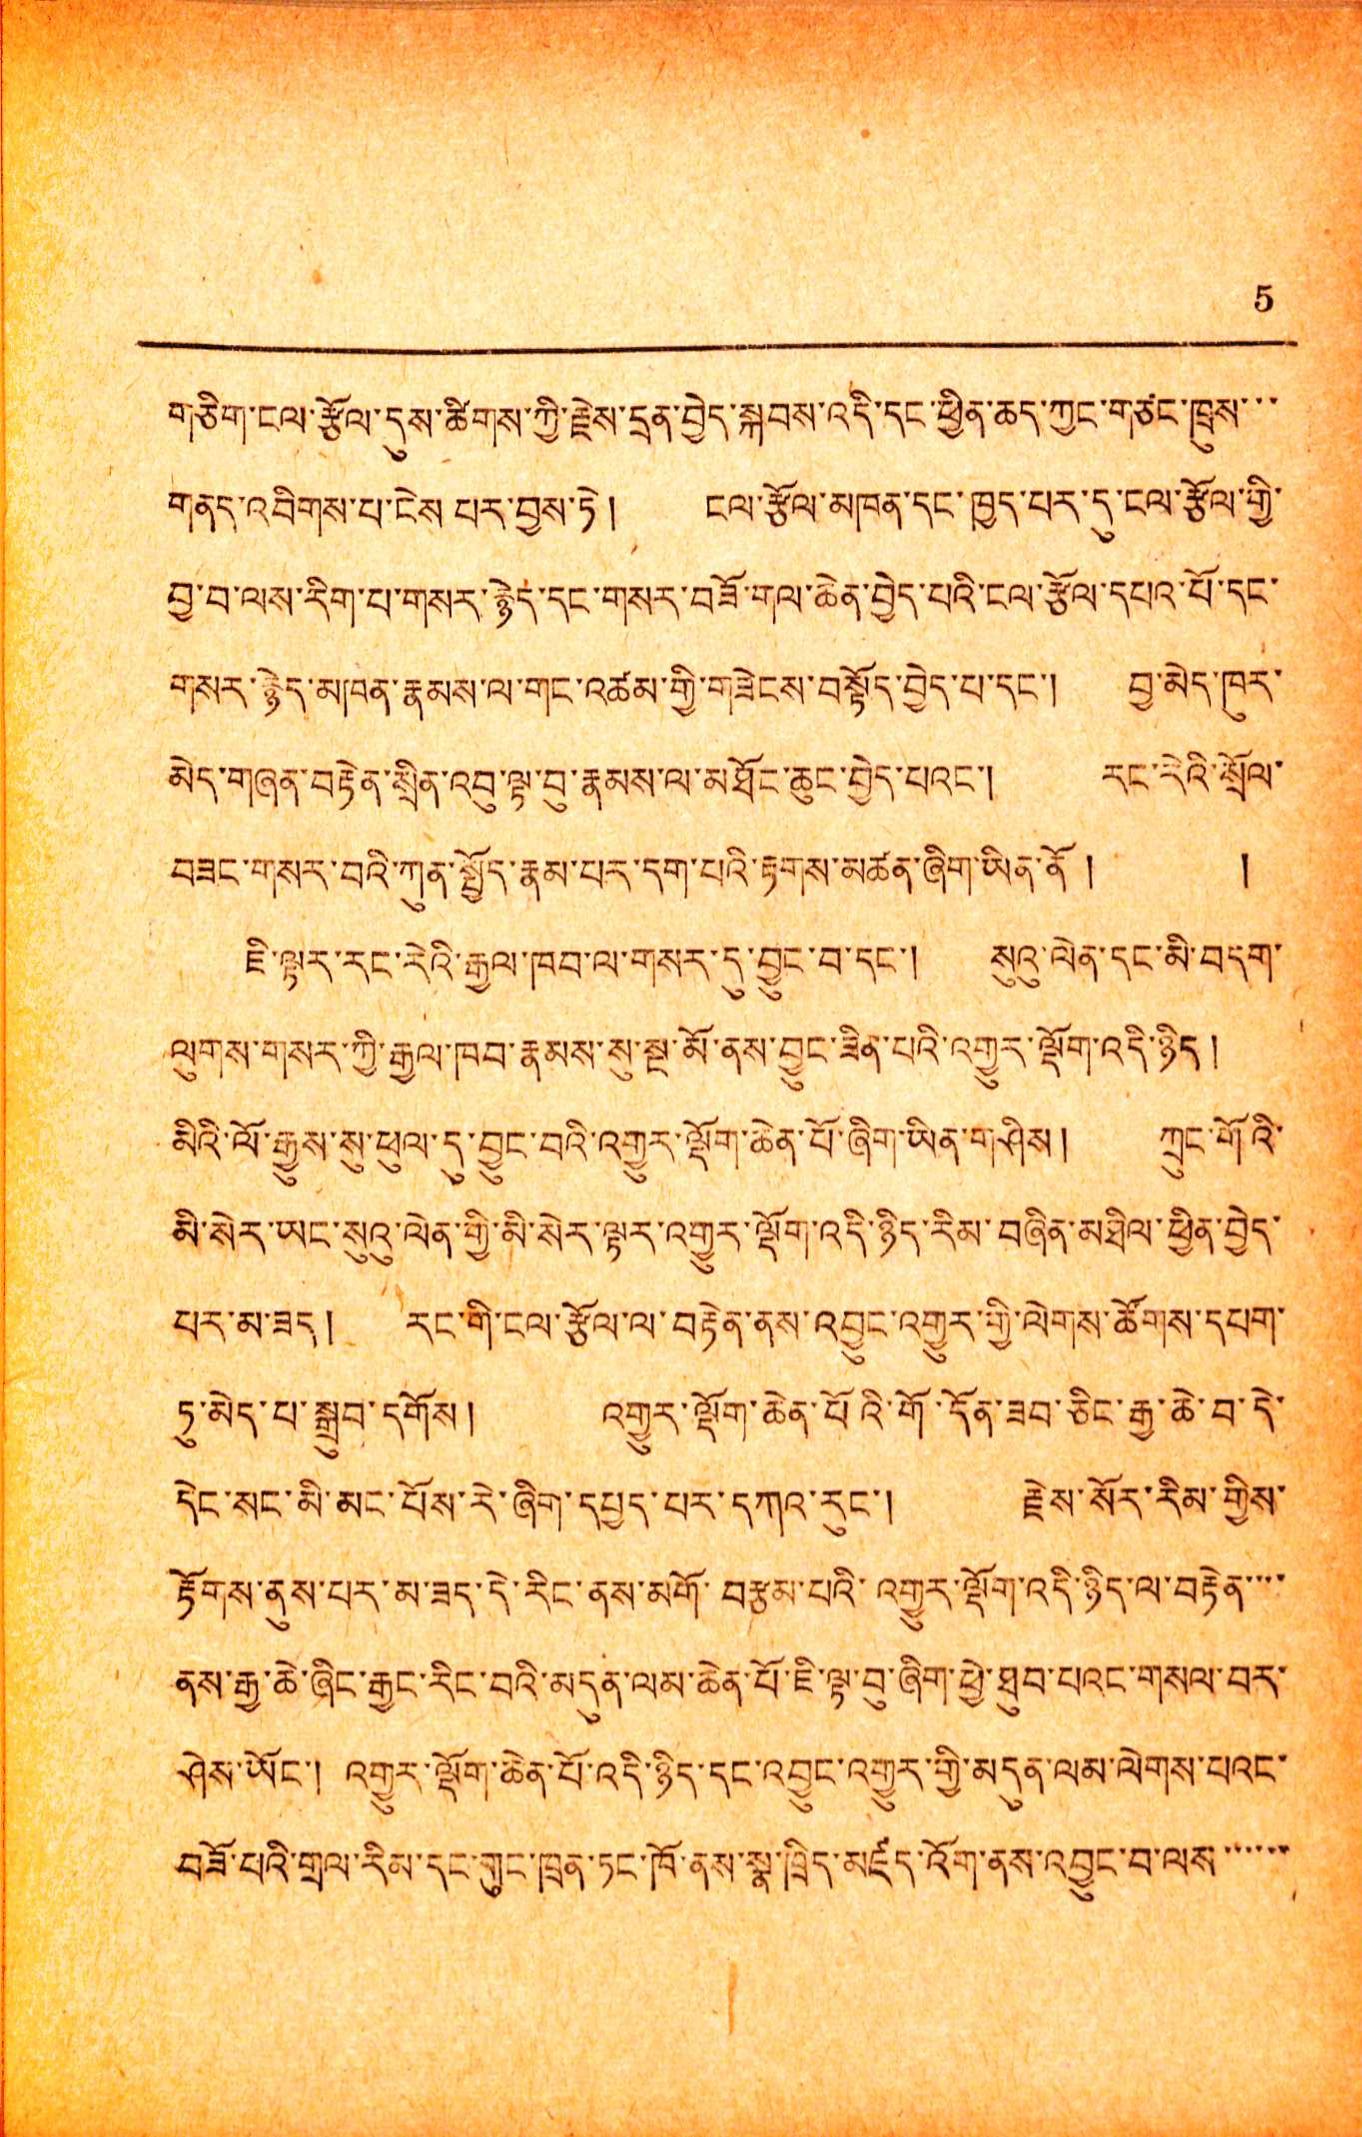5
གཅིག་ངལ་རྩོལ་དུས་ཚིགས་ཀྱི་རྗེས་དྲན་བྱེད་སྐབས་འདི་དང་ཕྱིན་ཆད་ཀྱང་གཙང་ཁྲུས་་་
གནད་འབིགས་པ་ངེས པར་བྱས་ཏེ། ངལ་རྩོལ་མཁན་དང་ཁྱད་པར་དུ་ངལ་རྩོལ་གྱི་
བྱ་བ་ལས་རིག་པ་གསར་རྙེད་དང་གསར་བཟོ་གལ་ཆེན་བྱེད་པའི་ངལ་རྩོལ་དཔའ་པོ་དང་
གསར་ཉེད་མཁན་རྣམས་ལ་གང་འཚམ་གྱི་གཟེངས་བསྟོད་བྱེད་པ་དང་། བྱ་མེད་ཁུར་
མེད་གཞན་བརྟེན་སྲིན་འབུ་ལྟ་བུ་རྣམས་ལ་མཐོང་ཆུང་བྱེད་པའང་། རང་རེའི་སྲོལ་
བཟང་གསར་བའི་ཀུན་སྤྱོད་རྣམ་པར་དག་པའི་རྟགས་མཚན་ཞིག་ཡིན་ནོ། །
ཇི་ལྟར་རང་རེའི་རྒྱལ་ཁབ་ལ་གསར་དུ་བྱུང་བ་དང་། སུའུ་ལེན་དང་མི་བདག་
ལུགས་གསར་གྱི་རྒྱལ་ཁབ་རྣམས་སུ་སྔ་མོ་ནས་བྱུང་ཟིན་པའི་འགྱུར་ལྡོག་འདི་ཉིད།
མིའི་ལོ་རྒྱུས་སུ་ཕུལ་དུ་བྱུང་བའི་འགྱུར་ལྡོག་ཆེན་པོ་ཞིག་ཡིན་གཤིས། ཀྲུང་གོའི་
མི་སེར་ཡང་སུའུ་ལེན་གྱི་མི་སེར་ལྟར་འགྱུར་ལྡོག་འདི་ཉིད་རིམ་བཞིན་མཐིལ་ཕྱིན་བྱེད་
པར་མ་ཟད། རང་གི་ངལ་རྩོལ་ལ་བརྟེན་ནས་འབྱུང་འགྱུར་གྱི་ལེགས་ཚོགས་དཔག་
ཏུ་མེད་པ་སྒྲུབ་དགོས། འགྱུར་ལྡོག་ཆེན་པོའི་གོ་དོན་ཟབ་ཅིང་རྒྱ་ཆེ་བ་དེ་
ནང་སང་མི་མང་པོས་རེ་ཞིག་དཔྱད་པར་དཀའ་རུང་། རྗེས་སོར་རིམ་གྱིས་
རྟོགས་ནུས་པར་མ་ཟད་དེ་རིང་ནས་མགོ་བརྩམ་པའི་འགྱུར་ལྡོག་འདི་ཉིད་ལ་བརྟེན་་་་
ནས་རྒྱ་ཆེ་ཞིང་རྒྱང་རིང་བའི་མདུན་ལམ་ཆེན་པོ་ཇི་ལྟ་བུ་ཞིག་ཕྱེ་ཐུབ་པའང་གསལ་བར་
ཤེས་ཡོང་། འགྱུར་ལྡོག་ཆེན་པོ་འདི་ཉིད་དང་འབྱུང་འགྱུར་གྱི་མདུན་ལམ་ལེགས་པའང་
བཟོ་པའི་གྲལ་རིམ་དང་གུང་ཁྲན་ཏང་ཁོ་ནས་སྣ་ཁྲིད་མཛད་འོག་ནས་འབྱུང་བ་ལས་་་་་་
